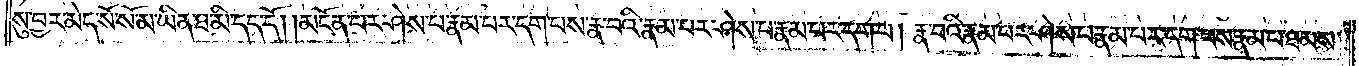སུ་བྱར་མེད་སོ་སོ་མ་ཡིན་ཐ་མི་དད་དོ། །མངོན་པར་ཤེས་པ་རྣམ་པར་དག་པས་རྣ་བའི་རྣམ་པར་ཤེས་པ་རྣམ་པར་དག་པ། རྣ་བའི་རྣམ་པར་ཤེས་པ་རྣམ་པར་དག་པས་རྣམ་པ་ཐམས་
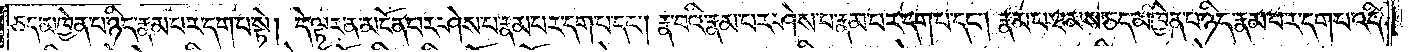ཅད་མཁྱེན་པ་ཉིད་རྣམ་པར་དག་པ་སྟེ། དེ་ལྟར་ན་མངོན་པར་ཤེས་པ་རྣམ་པར་དག་པ་དང༌། རྣ་བའི་རྣམ་པར་ཤེས་པ་རྣམ་པར་དག་པ་དང༌། རྣམ་པ་ཐམས་ཅད་མཁྱེན་པ་ཉིད་རྣམ་པར་དག་པ་འདི་
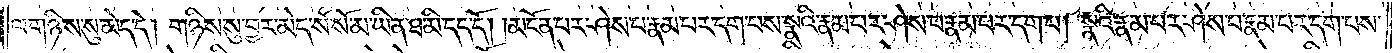ལ་གཉིས་སུ་མེད་དེ། གཉིས་སུ་བྱར་མེད་སོ་སོ་མ་ཡིན་ཐ་མི་དད་དོ། །མངོན་པར་ཤེས་པ་རྣམ་པར་དག་པས་སྣའི་རྣམ་པར་ཤེས་པ་རྣམ་པར་དག་པ། སྣའི་རྣམ་པར་ཤེས་པ་རྣམ་པར་དག་པས་
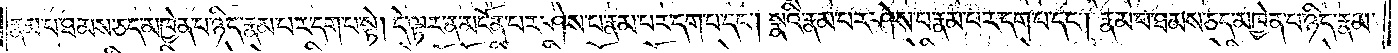རྣམ་པ་ཐམས་ཅད་མཁྱེན་པ་ཉིད་རྣམ་པར་དག་པ་སྟེ། དེ་ལྟར་ན་མངོན་པར་ཤེས་པ་རྣམ་པར་དག་པ་དང༌། སྣའི་རྣམ་པར་ཤེས་པ་རྣམ་པར་དག་པ་དང༌། རྣམ་པ་ཐམས་ཅད་མཁྱེན་པ་ཉིད་རྣམ་
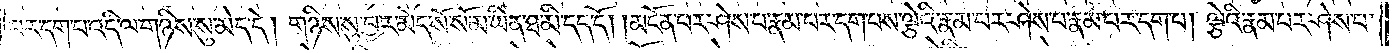པར་དག་པ་འདི་ལ་གཉིས་སུ་མེད་དེ། གཉིས་སུ་བྱར་མེད་སོ་སོ་མ་ཡིན་ཐ་མི་དད་དོ། །མངོན་པར་ཤེས་པ་རྣམ་པར་དག་པས་ལྕེའི་རྣམ་པར་ཤེས་པ་རྣམ་པར་དག་པ། ལྕེའི་རྣམ་པར་ཤེས་པ་
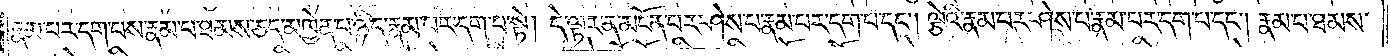རྣམ་པར་དག་པས་རྣམ་པ་ཐམས་ཅད་མཁྱེན་པ་ཉིད་རྣམ་པར་དག་པ་སྟེ། དེ་ལྟར་ན་མངོན་པར་ཤེས་པ་རྣམ་པར་དག་པ་དང༌། ལྕེའི་རྣམ་པར་ཤེས་པ་རྣམ་པར་དག་པ་དང༌། རྣམ་པ་ཐམས་
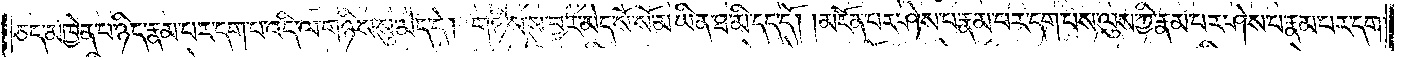ཅད་མཁྱེན་པ་ཉིད་རྣམ་པར་དག་པ་འདི་ལ་གཉིས་སུ་མེད་དེ། གཉིས་སུ་བྱར་མེད་སོ་སོ་མ་ཡིན་ཐ་མི་དད་དོ། །མངོན་པར་ཤེས་པ་རྣམ་པར་དག་པས་ལུས་ཀྱི་རྣམ་པར་ཤེས་པ་རྣམ་པར་དག་
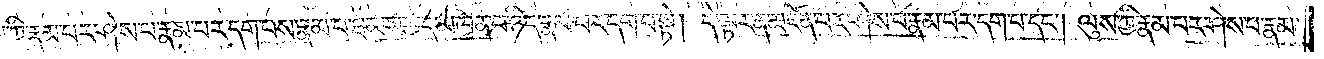ཀྱི་རྣམ་པར་ཤེས་པ་རྣམ་པར་དག་པས་རྣམ་པ་ཐམས་ཅད་མཁྱེན་པ་ཉིད་རྣམ་པར་དག་པ་སྟེ། དེ་ལྟར་ན་མངོན་པར་ཤེས་པ་རྣམ་པར་དག་པ་དང༌། ལུས་ཀྱི་རྣམ་པར་ཤེས་པ་རྣམ་
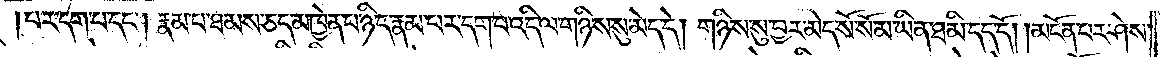པར་དག་པ་དང༌། རྣམ་པ་ཐམས་ཅད་མཁྱེན་པ་ཉིད་རྣམ་པར་དག་པ་འདི་ལ་གཉིས་སུ་མེད་དེ། གཉིས་སུ་བྱར་མེད་སོ་སོ་མ་ཡིན་ཐ་མི་དད་དོ། །མངོན་པར་ཤེས་
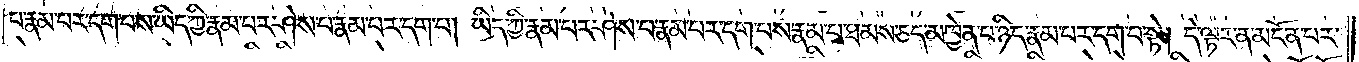པ་རྣམ་པར་དག་པས་ཡིད་ཀྱི་རྣམ་པར་ཤེས་པ་རྣམ་པར་དག་པ། ཡིད་ཀྱི་རྣམ་པར་ཤེས་པ་རྣམ་པར་དག་པས་རྣམ་པ་ཐམས་ཅད་མཁྱེན་པ་ཉིད་རྣམ་པར་དག་པ་སྟེ། དེ་ལྟར་ན་མངོན་པར་
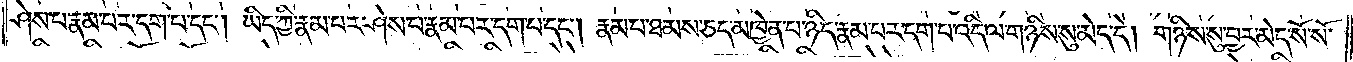ཤེས་པ་རྣམ་པར་དག་པ་དང༌། ཡིད་ཀྱི་རྣམ་པར་ཤེས་པ་རྣམ་པར་དག་པ་དང༌། རྣམ་པ་ཐམས་ཅད་མཁྱེན་པ་ཉིད་རྣམ་པར་དག་པ་འདི་ལ་གཉིས་སུ་མེད་དེ། གཉིས་སུ་བྱར་མེད་སོ་སོ་
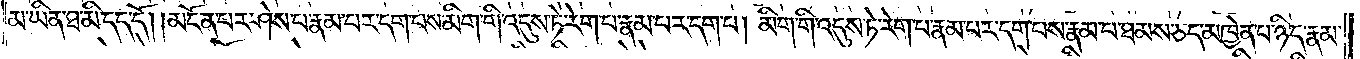མ་ཡིན་ཐ་མི་དད་དོ། །མངོན་པར་ཤེས་པ་རྣམ་པར་དག་པས་མིག་གི་འདུས་ཏེ་རེག་པ་རྣམ་པར་དག་པ། མིག་གི་འདུས་ཏེ་རེག་པ་རྣམ་པར་དག་པས་རྣམ་པ་ཐམས་ཅད་མཁྱེན་པ་ཉིད་རྣམ་
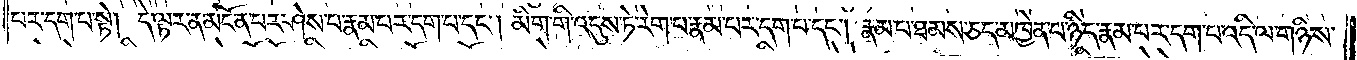པར་དག་པ་སྟེ། དེ་ལྟར་ན་མངོན་པར་ཤེས་པ་རྣམ་པར་དག་པ་དང༌། མིག་གི་འདུས་ཏེ་རེག་པ་རྣམ་པར་དག་པ་དང༌། རྣམ་པ་ཐམས་ཅད་མཁྱེན་པ་ཉིད་རྣམ་པར་དག་པ་འདི་ལ་གཉིས་
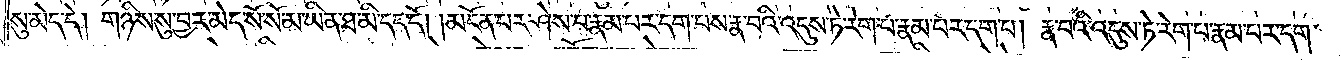སུ་མེད་དེ། གཉིས་སུ་བྱར་མེད་སོ་སོ་མ་ཡིན་ཐ་མི་དད་དོ། །མངོན་པར་ཤེས་པ་རྣམ་པར་དག་པས་རྣ་བའི་འདུས་ཏེ་རེག་པ་རྣམ་པར་དག་པ། རྣ་བའི་འདུས་ཏེ་རེག་པ་རྣམ་པར་དག་
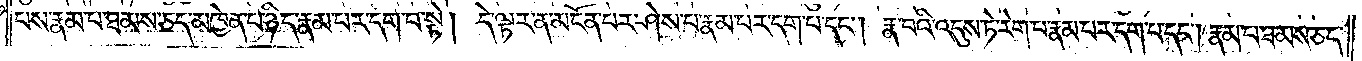པས་རྣམ་པ་ཐམས་ཅད་མཁྱེན་པ་ཉིད་རྣམ་པར་དག་པ་སྟེ། དེ་ལྟར་ན་མངོན་པར་ཤེས་པ་རྣམ་པར་དག་པ་དང༌། རྣ་བའི་འདུས་ཏེ་རེག་པ་རྣམ་པར་དག་པ་དང༌། རྣམ་པ་ཐམས་ཅད་
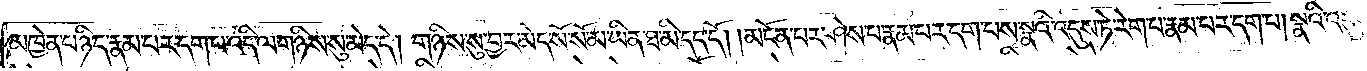མཁྱེན་པ་ཉིད་རྣམ་པར་དག་པ་འདི་ལ་གཉིས་སུ་མེད་དེ། གཉིས་སུ་བྱར་མེད་སོ་སོ་མ་ཡིན་ཐ་མི་དད་དོ། །མངོན་པར་ཤེས་པ་རྣམ་པར་དག་པས་སྣའི་འདུས་ཏེ་རེག་པ་རྣམ་པར་དག་པ། སྣའི་འདུས་
